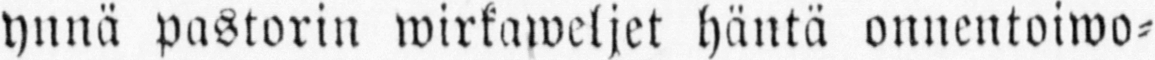ynnä pastorin wirkaweljet häntä onnentoiwo-
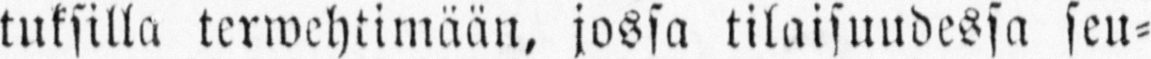tuksilla terwehtimään, jossa tilaisuudessa seu-
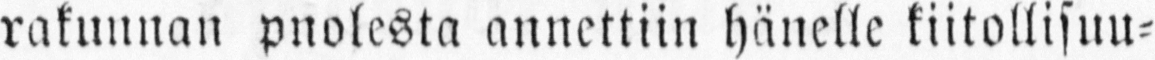rakunnan pnolesta annettiin hänelle kiitollisuu-
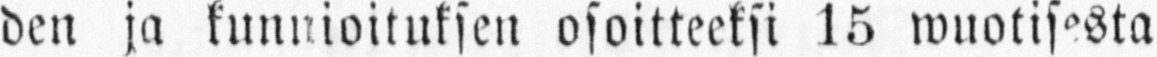den ja kunnioituksen osoitteeksi 15 wuotisesta
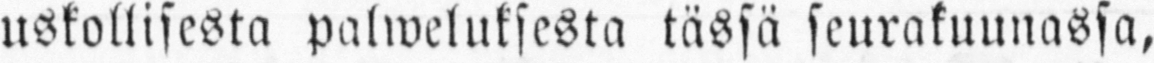uskollisesta palweluksesta tässä seurakuunassa,
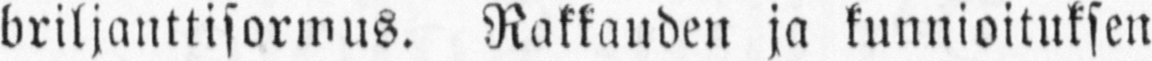briljanttisormus. Rakkauden ja kunnioituksen
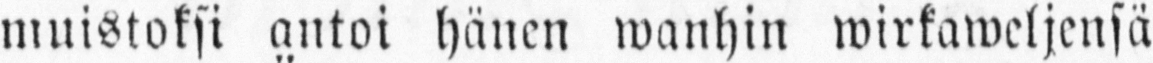muistoksi antoi hänen wanhin wirkaweljensä
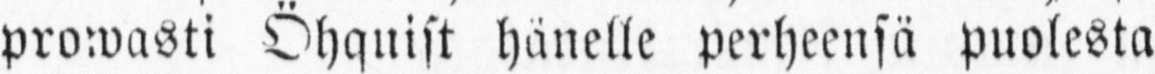prowasti Öhquist hänelle perheensä puolesta
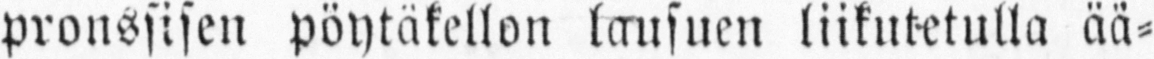pronssisen pöytäkellon lausuen liikutetulla ää-
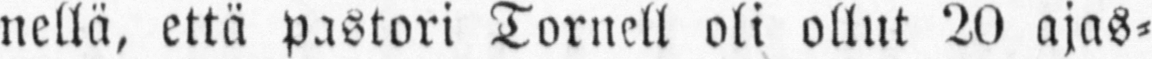nellä, että pastori Tornell oli ollut 20 ajas-
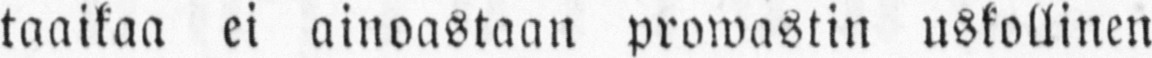taaikaa ei ainoastaan prowastin uskollinen
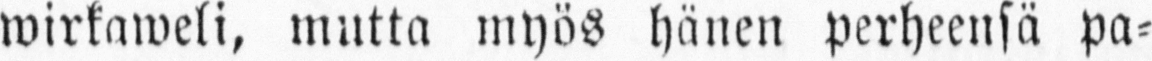wirkaweli, mutta myös hänen perheensä pa-
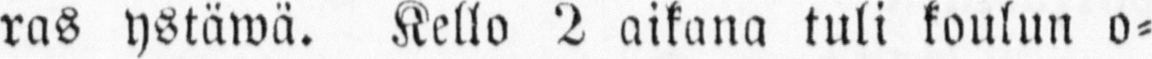ras ystäwä. Kello 2 aikana tuli koulun o-
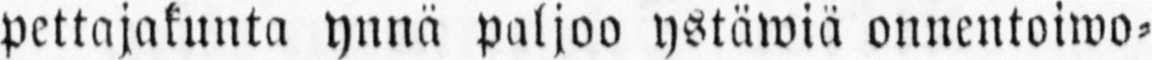pettajakunta ynnä paljoo ystäwiä onnentoiwo-
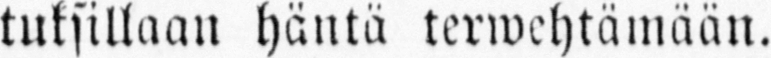tuksillaan häntä terwehtämään.
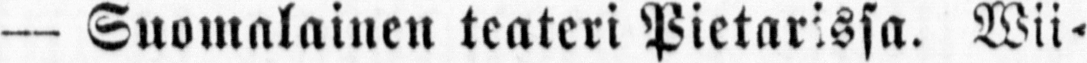— Suomalainen teateri Pietarissa. Wii-
